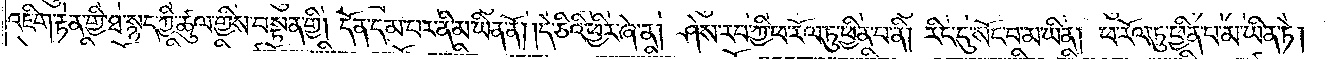འཇིག་རྟེན་གྱི་ཐ་སྙད་ཀྱི་ཚུལ་གྱིས་བསྟན་གྱི། དོན་དམ་པར་ནི་མ་ཡིན་ནོ། །དེ་ཅིའི་ཕྱིར་ཞེ་ན། ཤེས་རབ་ཀྱི་ཕ་རོལ་ཏུ་ཕྱིན་པ་ནི། རིང་དུ་སོང་བ་མ་ཡིན། ཕ་རོལ་ཏུ་ཕྱིན་པ་མ་ཡིན་ཏེ།
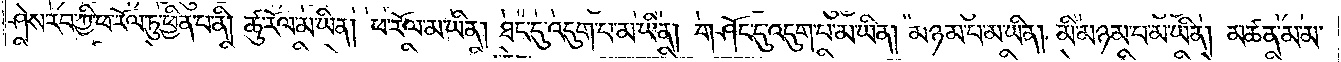ཤེས་རབ་ཀྱི་ཕ་རོལ་ཏུ་ཕྱིན་པ་ནི། ཚུ་རོལ་མ་ཡིན། ཕ་རོལ་མ་ཡིན། ཐང་དུ་འདུག་པ་མ་ཡིན། གཤོང་དུ་འདུག་པ་མ་ཡིན། མཉམ་པ་མ་ཡིན། མི་མཉམ་པ་མ་ཡིན། མཚན་མ་མ་
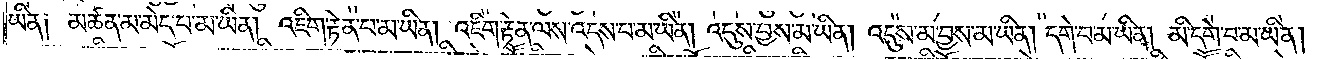ཡིན༑ མཚན་མ་མེད་པ་མ་ཡིན། འཇིག་རྟེན་པ་མ་ཡིན། འཇིག་རྟེན་ལས་འདས་པ་མ་ཡིན༎ འདུས་བྱས་མ་ཡིན། འདུས་མ་བྱས་མ་ཡིན། དགེ་བ་མ་ཡིན། མི་དགེ་བ་མ་ཡིན།
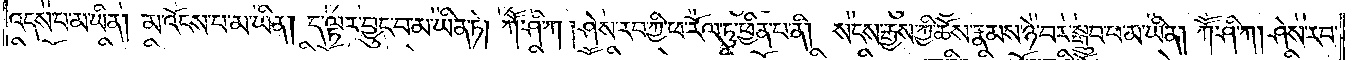འདས་པ་མ་ཡིན། མ་འོངས་པ་མ་ཡིན། ད་ལྟར་བྱུང་བ་མ་ཡིན་ཏེ། ཀཽ་ཤི་ཀ །ཤེས་རབ་ཀྱི་ཕ་རོལ་ཏུ་ཕྱིན་པ་ནི། སངས་རྒྱས་ཀྱི་ཆོས་རྣམས་ཉེ་བར་བསྒྲུབ་པ་མ་ཡིན། ཀཽ་ཤི་ཀ། ཤེས་རབ་
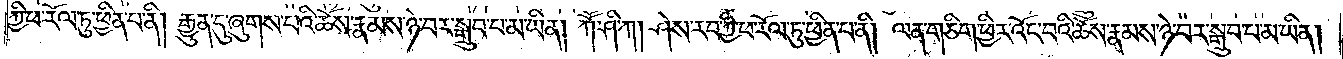ཀྱི་ཕ་རོལ་ཏུ་ཕྱིན་པ་ནི། རྒྱུན་དུ་ཞུགས་པའི་ཆོས་རྣམས་ཉེ་བར་བསྒྲུབ་པ་མ་ཡིན། ཀཽ་ཤི་ཀ། ཤེས་རབ་ཀྱི་ཕ་རོལ་ཏུ་ཕྱིན་པ་ནི། ལན་གཅིག་ཕྱིར་འོང་བའི་ཆོས་རྣམས་ཉེ་བར་བསྒྲུབ་པ་མ་ཡིན།
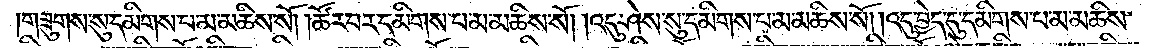གཟུགས་སུ་དམིགས་པ་མ་མཆིས་སོ། །ཚོར་བར་དམིགས་པ་མ་མཆིས་སོ། །འདུ་ཤེས་སུ་དམིགས་པ་མ་མཆིས་སོ། །འདུ་བྱེད་དུ་དམིགས་པ་མ་མཆིས་
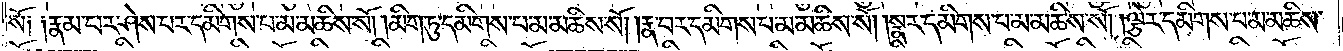སོ། །རྣམ་པར་ཤེས་པར་དམིགས་པ་མ་མཆིས་སོ། །མིག་ཏུ་དམིགས་པ་མ་མཆིས་སོ། །རྣ་བར་དམིགས་པ་མ་མཆིས་སོ། །སྣར་དམིགས་པ་མ་མཆིས་སོ། །ལྕེར་དམིགས་པ་མ་མཆིས་
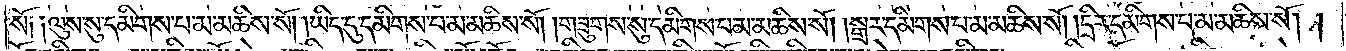སོ། །ལུས་སུ་དམིགས་པ་མ་མཆིས་སོ། །ཡིད་དུ་དམིགས་པ་མ་མཆིས་སོ། །གཟུགས་སུ་དམིགས་པ་མ་མཆིས་སོ། །སྒྲར་དམིགས་པ་མ་མཆིས་སོ། །དྲིར་དམིགས་པ་མ་མཆིས་སོ། །
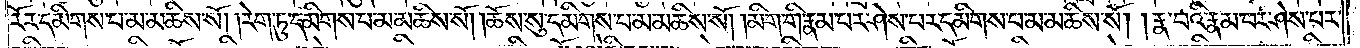རོར་དམིགས་པ་མ་མཆིས་སོ། །རེག་ཏུ་དམིགས་པ་མ་མཆིས་སོ། །ཆོས་སུ་དམིགས་པ་མ་མཆིས་སོ། །མིག་གི་རྣམ་པར་ཤེས་པར་དམིགས་པ་མ་མཆིས་སོ། །རྣ་བའི་རྣམ་པར་ཤེས་པར་
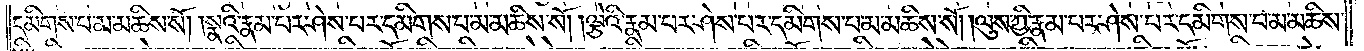དམིགས་པ་མ་མཆིས་སོ། །སྣའི་རྣམ་པར་ཤེས་པར་དམིགས་པ་མ་མཆིས་སོ། །ལྕེའི་རྣམ་པར་ཤེས་པར་དམིགས་པ་མ་མཆིས་སོ། །ལུས་ཀྱི་རྣམ་པར་ཤེས་པར་དམིགས་པ་མ་མཆིས་
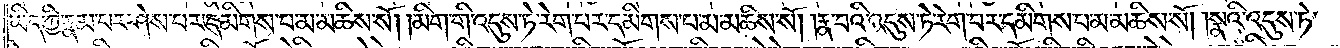ཡིད་ཀྱི་རྣམ་པར་ཤེས་པར་དམིགས་པ་མ་མཆིས་སོ། །མིག་གི་འདུས་ཏེ་རེག་པར་དམིགས་པ་མ་མཆིས་སོ། །རྣ་བའི་འདུས་ཏེ་རེག་པར་དམིགས་པ་མ་མཆིས་སོ། །སྣའི་འདུས་ཏེ་
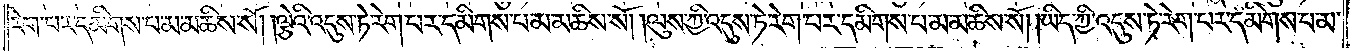རེག་པར་དམིགས་པ་མ་མཆིས་སོ། །ལྕེའི་འདུས་ཏེ་རེག་པར་དམིགས་པ་མ་མཆིས་སོ། །ལུས་ཀྱི་འདུས་ཏེ་རེག་པར་དམིགས་པ་མ་མཆིས་སོ། །ཡིད་ཀྱི་འདུས་ཏེ་རེག་པར་དམིགས་པ་མ་
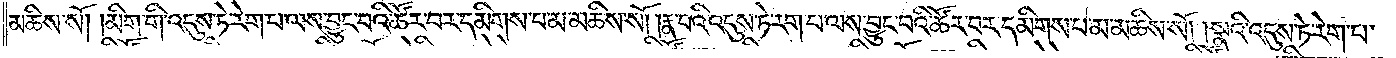མཆིས་སོ། །མིག་གི་འདུས་ཏེ་རེག་པ་ལས་བྱུང་བའི་ཚོར་བར་དམིགས་པ་མ་མཆིས་སོ། རྣ་བའི་འདུས་ཏེ་རེག་པ་ལས་བྱུང་བའི་ཚོར་བར་དམིགས་པ་མ་མཆིས་སོ། །སྣའི་འདུས་ཏེ་རེག་པ་
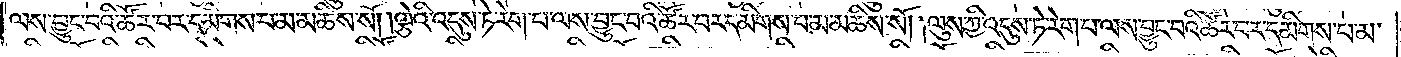ལས་བྱུང་བའི་ཚོར་བར་དམིགས་པ་མ་མཆིས་སོ། །ལྕེའི་འདུས་ཏེ་རེག་པ་ལས་བྱུང་བའི་ཚོར་བར་དམིགས་པ་མ་མཆིས་སོ། །ལུས་ཀྱི་འདུས་ཏེ་རེག་པ་ལས་བྱུང་བའི་ཚོར་བར་དམིགས་པ་མ་
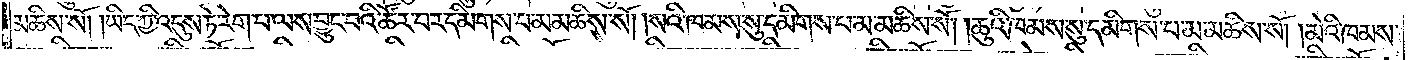མཆིས་སོ། །ཡིད་ཀྱི་འདུས་ཏེ་རེག་པ་ལས་བྱུང་བའི་ཚོར་བར་དམིགས་པ་མ་མཆིས་སོ། །སའི་ཁམས་སུ་དམིགས་པ་མ་མཆིས་སོ། །ཆུའི་ཁམས་སུ་དམིགས་པ་མ་མཆིས་སོ། །མེའི་ཁམས་
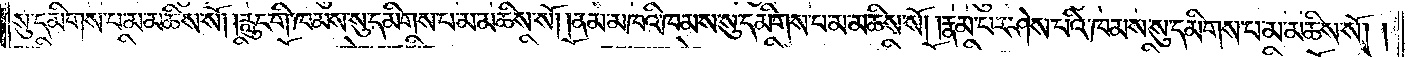སུ་དམིགས་པ་མ་མཆིས་སོ། །རླུང་གི་ཁམས་སུ་དམིགས་པ་མ་མཆིས་སོ། །ནམ་མཁའི་ཁམས་སུ་དམིགས་པ་མ་མཆིས་སོ། །རྣམ་པར་ཤེས་པའི་ཁམས་སུ་དམིགས་པ་མ་མཆིས་སོ། །
